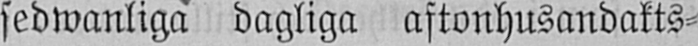sedwanliga dagliga aftonhusandakts-
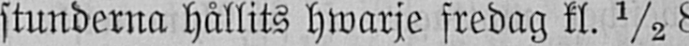stunderna hållits hwarje fredag kl. 1/2 8
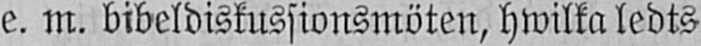e. m. bibeldiskussionsmöten, hwilka ledts
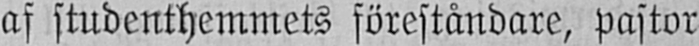af studenthemmets föreståndare, pastor
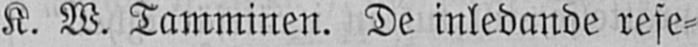K. W. Tamminen. De inledande refe-
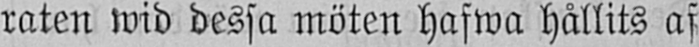raten wid dessa möten hafwa hållits af
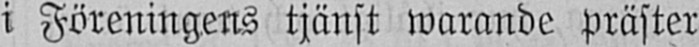i Föreningens tjänst warande präster
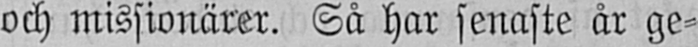och missionärer. Så har senaste år ge-
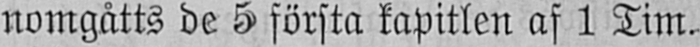nomgåtts de 5 första kapitlen af 1 Tim.
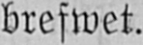brefwet.
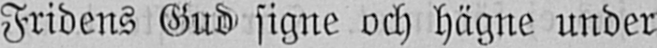Fridens Gud signe och hägne under
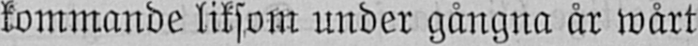kommande liksom under gångna år wårt
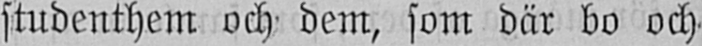studenthem och dem, som där bo och
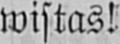wistas!
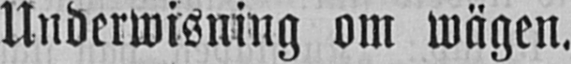Underwisning om wägen.
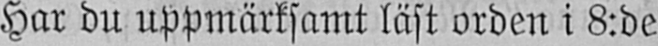Har du uppmärksamt läst orden i 8:de
